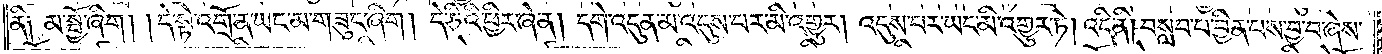ནི༑ མ་སྤྱོ་ཞིག། །དེ་སྟེ་འགྲོ་ན་ཡང་མ་གཟུང་ཞིག །དེ་ཅིའི་ཕྱིར་ཞེ་ན། དགེ་འདུན་མ་འདུས་པར་མི་འགྱུར། འདུས་པར་ཡང་མི་འགྱུར་ཏེ། འདི་ནི། བསླབ་པ་བྱིན་པས་བྱ་བ་ཞེས་
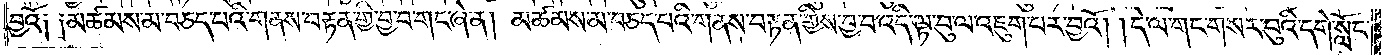བྱའོ༑ ༑མཚམས་མ་བཅད་པའི་གནས་བརྟན་གྱི་བྱ་བ་གང་ཞེ་ན། མཚམས་མ་བཅད་པའི་གནས་བརྟན་གྱིས་བྱ་བ་འདི་ལྟ་བུ་ལ་འཇུག་པར་བྱའོ། །དེ་ལ་གང་གསར་བུའི་དགེ་སློང་
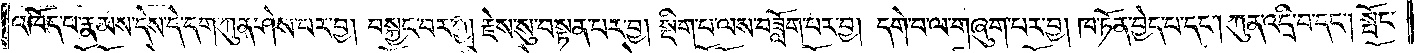འཁོད་པ་རྣམས་དེས་དེ་དག་ཀུན་ཤེས་པར་བྱ། བསྐྱང་བར་བྱ། རྗེས་སུ་བསྟན་པར་བྱ། སྡིག་པ་ལས་བཟློག་པར་བྱ། དགེ་བ་ལ་གཞུག་པར་བྱ། ཁ་ཏོན་བྱེད་པ་དང༌། ཀུན་འདྲི་བ་དང༌། སྤོང་
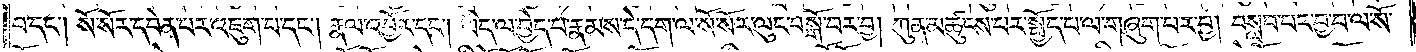བ་དང༌། སོ་སོར་དབེན་པར་འཇུག་པ་དང༌། རྣལ་འབྱོར་དང༌། ཡིད་ལ་བྱེད་པ་རྣམས་དེ་དག་ལ་སོ་སོར་ལུང་བསྒོ་བར་བྱ། ཀུན་མཚུངས་པར་སྤྱོད་པ་ལ་གཞུག་པར་བྱ། བསླབ་པར་བྱ་བ་ལ་སོ་
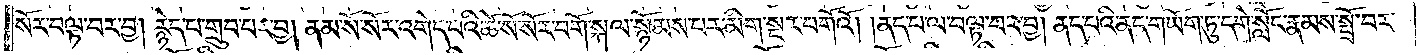སོར་བལྟ་བར་བྱ། རྙེད་པ་གྲུབ་པར་བྱ། ནམ་སོ་སོར་འགེད་པའི་ཚེ་སོ་སོར་བགོ་སྐལ་སྙོམས་པར་མིག་སྔར་བགོའོ། །ནད་པ་ལ་བལྟ་བར་བྱ། ནད་པའི་ནད་གཡོག་ཏུ་དགེ་སློང་རྣམས་སྤྲོ་བར་
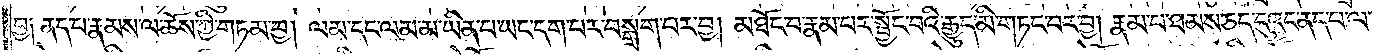བྱ༑ ནད་པ་རྣམས་ལ་ཆོས་ཀྱི་གཏམ་བྱ། ལམ་དང་ལམ་མ་ཡིན་པ་ཡང་དག་པར་བསྒྲག་པར་བྱ། མཐོང་བ་རྣམ་པར་སྦྱོང་བའི་རྒྱུད་མི་གཏང་བར་བྱ། རྣམ་པ་ཐམས་ཅད་དུའང་ནད་པ་ལ་
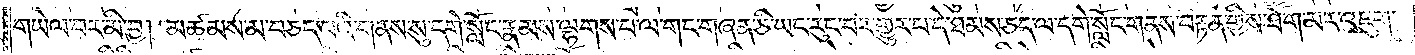གཡེལ་བར་མི་བྱ། མཚམས་མ་བཅད་པའི་གནས་སུ་དགེ་སློང་རྣམས་ལྷགས་པ་ལ་གང་གཞན་ཅི་ཡང་རུང་བར་གྱུར་པ་དེ་ཐམས་ཅད་ལ་དགེ་སློང་གནས་བརྟན་གྱིས་ཐོག་མར་འཇུག་
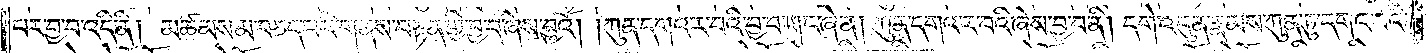པར་བྱ་བ་འདི་ནི། མཚམས་མ་བཅད་པའི་གནས་བརྟན་གྱི་བྱ་བ་ཞེས་བྱའོ། །ཀུན་དགའ་ར་བའི་བྱ་བ་གང་ཞེ་ན། ཀུན་དགའ་ར་བའི་ཞེས་བྱ་བ་ནི། དགེ་འདུན་རྣམས་ཀུན་ཏུ་དགའ་བའི་
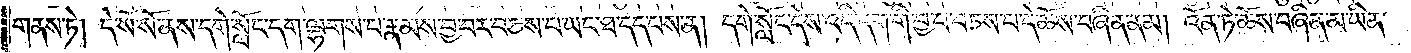གནས་ཏེ། དེ་སོ་སོ་ནས་དགེ་སློང་དག་ལྷགས་པ་རྣམས་བྱ་བར་བཅས་པ་ཡང་ཐ་དད་པས་ན། དགེ་སློང་དེས་འདི་དག་གི་བྱ་བ་བཅས་པ་དེ་ཆོས་བཞིན་ནམ། འོན་ཏེ་ཆོས་བཞིན་མ་ཡིན་
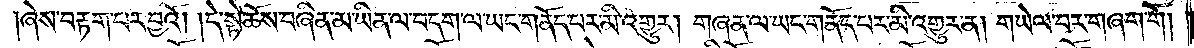ཞེས་བརྟག་པར་བྱའོ། །དེ་སྟེ་ཆོས་བཞིན་མ་ཡིན་ལ་བདག་ལ་ཡང་གནོད་པར་མི་འགྱུར། གཞན་ལ་ཡང་གནོད་པར་མི་འགྱུར་ན། གཡེལ་བར་གཞག་གོ།
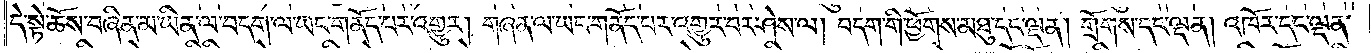དེ་སྟེ་ཆོས་བཞིན་མ་ཡིན་ལ་བདག་ལ་ཡང་གནོད་པར་འགྱུར། གཞན་ལ་ཡང་གནོད་པར་འགྱུར་བར་ཤེས་ལ། བདག་གི་ཕྱོགས་མཐུ་དང་ལྡན། གྲོགས་དང་ལྡན། འཁོར་དང་ལྡན་
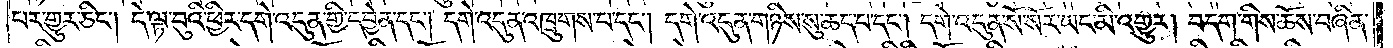པར་གྱུར་ཅིང༌། དེ་ལྟ་བུའི་ཕྱིར་དགེ་འདུན་གྱི་དབྱེན་དང༌། དགེ་འདུན་འཁྲུགས་པ་དང༌། དགེ་འདུན་གཉིས་སུ་ཆད་པ་དང༌། དགེ་འདུན་སོ་སོར་ཡང་མི་འགྱུར། བདག་གིས་ཆོས་བཞིན་
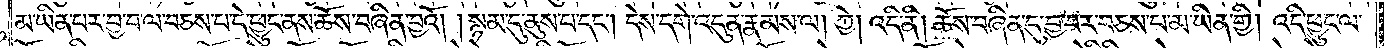མ་ཡིན་པར་བྱ་བ་ལ་བཅས་པ་དེ་ཕྱུང་ནས་ཆོས་བཞིན་བྱའོ། །སྙམ་དུ་ནུས་པ་དང༌། དེས་དགེ་འདུན་རྣམས་ལ། ཀྱེ། འདི་ནི། ཆོས་བཞིན་དུ་བྱ་བར་བཅས་པ་མ་ཡིན་གྱི། འདི་ཕྱུང་ལ་
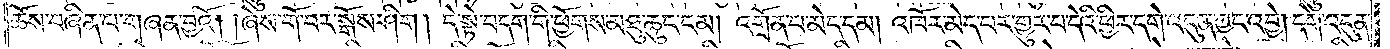ཆོས་བཞིན་པ་གཞན་བྱའོ། །ཞེས་གོ་བར་སྒོས་ཤིག །དེ་སྟེ་བདག་གི་ཕྱོགས་མཐུ་ཆུང་ངམ། འགྲོན་པ་མེད་དམ། འཁོར་མེད་པར་གྱུར་པ་དེའི་ཕྱིར་དགེ་འདུན་ཀྱང་འབྱེ། དགེ་འདུན་
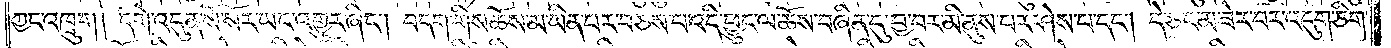ཀྱང་འཁྲུག །དགེ་འདུན་སོ་སོར་ཡང་འགྱུར་ཞིང༌། བདག་གིས་ཆོས་མ་ཡིན་པར་བཅས་པ་འདི་ཕྱུང་ལ་ཆོས་བཞིན་དུ་བྱ་བར་མི་ནུས་པར་ཤེས་པ་དང༌། དེ་ཅང་མ་ཟེར་བར་འདུག་ཅིག་
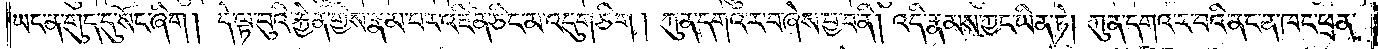ཡང་ན་གུད་དུ་སོང་ཞིག །དེ་ལྟ་བུའི་རྐྱེན་གྱིས་རྣམ་པར་འཛིན་ཅིང་མ་འདུག་ཅིག །ཀུན་དགའ་ར་བ་ཞེས་བྱ་བ་ནི། འདི་རྣམས་ཀྱང་ཡིན་ཏེ། ཀུན་དགའ་ར་བའི་ནང་ན་ཁང་ཕྲན་
